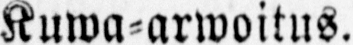Kuwa-arwoitus.
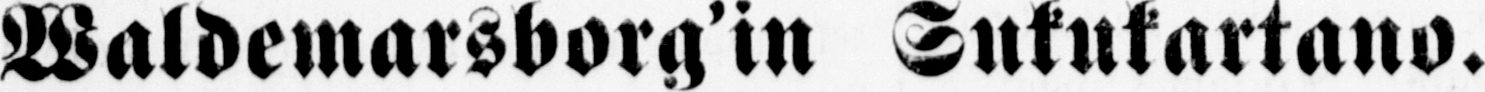Waldemarsborg’ in Sukukartano.
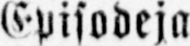Episodeja
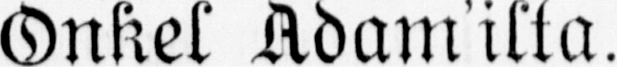Onkel Adam’ilta.
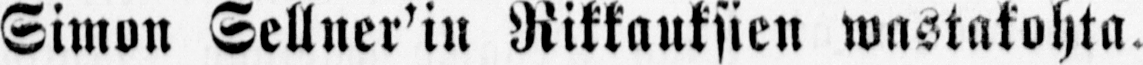Simon Sellner’in Rikkauksien wastakohta.
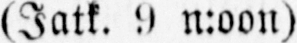(Jatk. 9 n:oon)
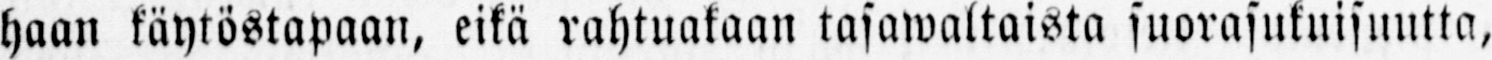haan käytöstapaan, eikä rahtuakaan tasawaltaista suorasukuisuutta,
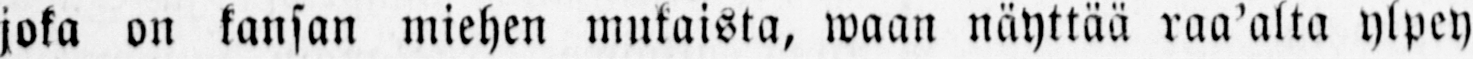joka on kansan miehen mukaista, waan näyttää raa'alta ylpey-
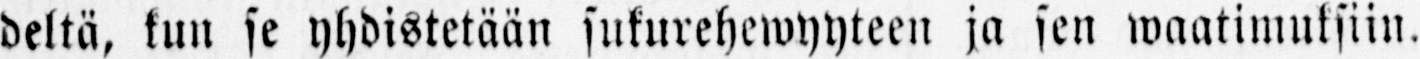deltä, kun se yhdistetään sukurehewyyteen ja sen waatimuksiin.
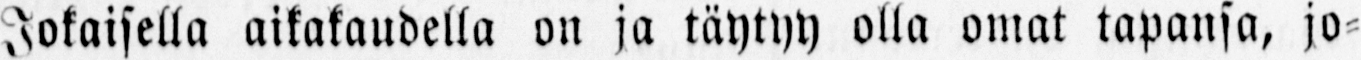Jokaisella aikakaudella on ja täytyy olla omat tapansa, jo-
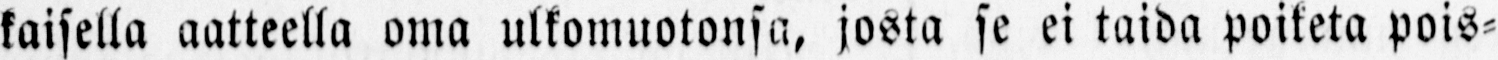kaisella aatteella oma ulkomuotonsa, josta se ei taida poiketa pois-
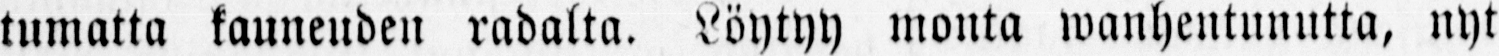tumatta kauneuden radalta. Löytyy monta wanhentunutta, nyt
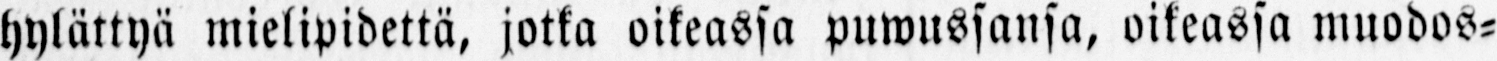hylättyä mielipidettä, jotka oikeassa puwussansa, oikeassa muodos-
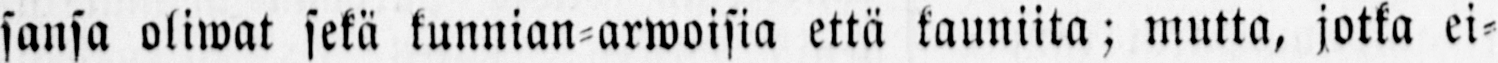sansa oliwat sekä kunnian-arwoisia että kauniita; mutta, jotka ei-
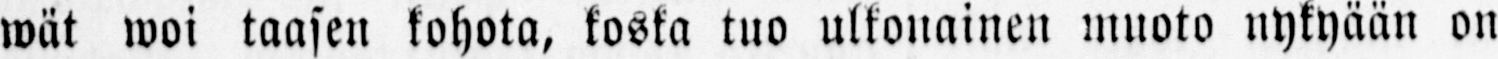wät woi taasen kohota, koska tuo ulkonainen muoto nykyään on
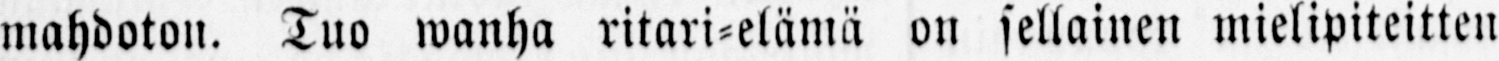mahdoton. Tuo wanha ritari-elämä on sellainen mielipiteitten
